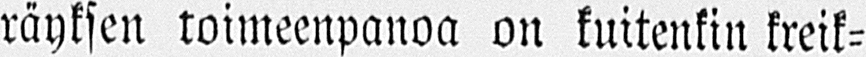räyksen toimeenpanoa on kuitenkin kreik-
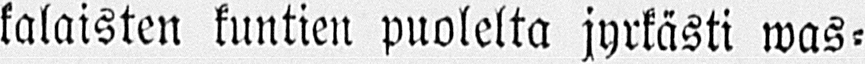kalaisten kuntien puolelta jyrkästi was-
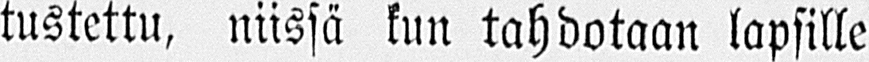tustettu, niissä kun tahdotaan lapsille
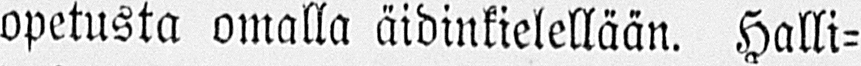opetusta omalla äidinkielellään. Halli-
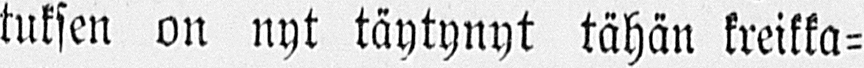tuksen on nyt täytynyt tähän kreikka-
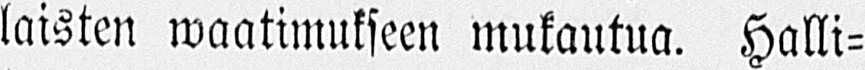laisten waatimnkseen mukautua. Halli-
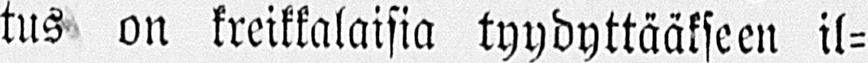tus on kreikkalaisia tyydyttääkseen il-
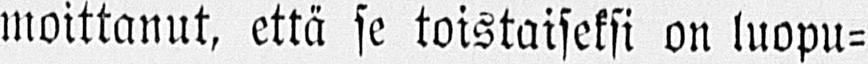moittanut, että se toistaiseksi on luopu-
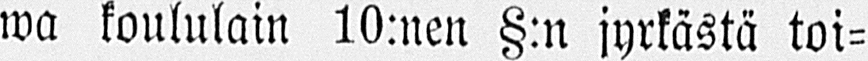wa koululain 10:nen §:n jyrkästä toi-
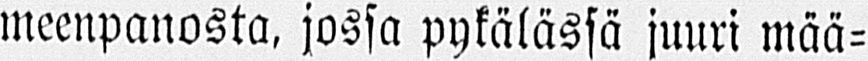meenpanosta, jossa pykälässä juuri mää-
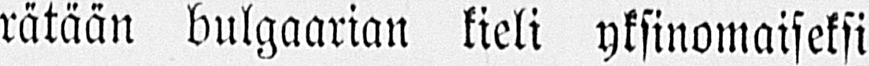rätään bulgaarian kieli yksinomaiseksi
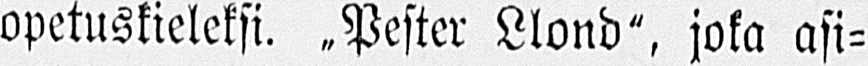opetuskieleksi. „Pester Llond", joka asi-
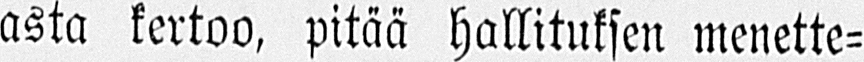asta kertoo, pitää hallituksen menette-
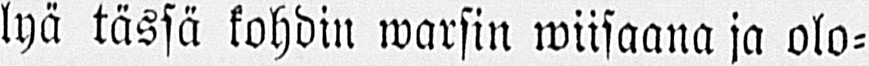lyä tässä kohdin warsin wiisaana ja olo-
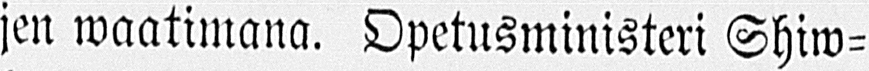jen waatimana. Opetusministeri Shiw-
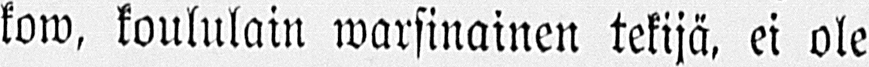kow, koululain warsinainen tekijä, ei ole
